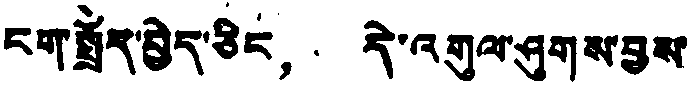ངག་སྤྲོད་བྱེད་ཅིང， དེ་འགུལ་ཤུགས་བྱས་
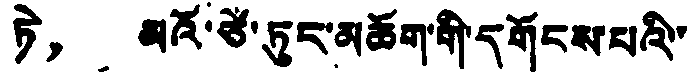ཏེ， མའོ་ཙེ་ཏུང་མཆོག་གི་དགོངས་པའི་་
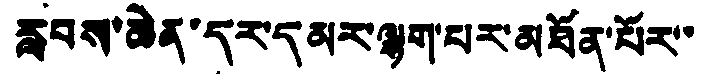རླབས་ཆེན་དར་དམར་ལྷག་པར་མཐོན་པོར་་
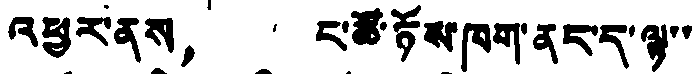འཕྱར་ནས， ང་ཚོ་ཉོས་ཁག་ནང་ད་ལྟ་་
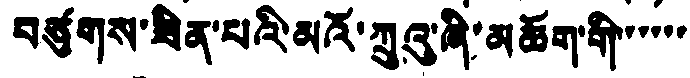བཙུགས་ཟིན་པའི་མའོ་ཀྲུའུ་ཞི་མཆོག་གི་་་་་་་
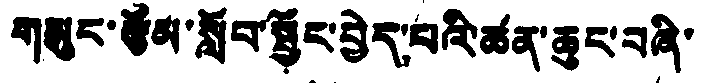གསུང་རྩོམ་སློབ་སྦྱོང་བྱེད་པའི་ཚན་ཆུང་བཞི་
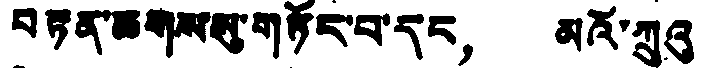བརྟན་ཆགས་སུ་གཏོང་བ་དང， མའོ་ཀྲུའུ
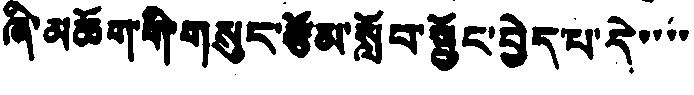ཞི་མཆོག་གི་གསུང་རྩོམ་སློབ་སྦྱོང་བྱེད་པ་དེ་་་་་
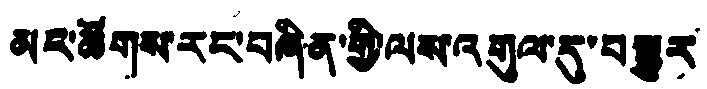མར་ཚོགས་རང་བཞིན་གྱི་ལས་འགུལ་དུ་བསྒྱུར
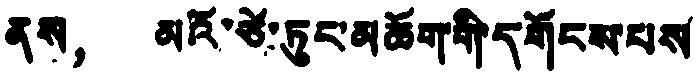ནས， མའོ་ཙེ་ཏུང་མཆོག་གི་དགོངས་པས
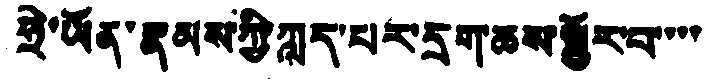ཧྲེ་ཡོན་རྣམས་ཀྱི་ཀླད་པར་དྲག་ཆས་སྦྱོར་བ་་་་
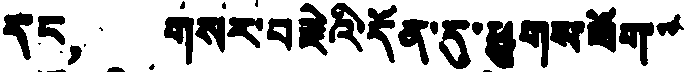དང， གསར་བརྗེའི་དོན་དུ་ཕྱུགས་ཟོག་་
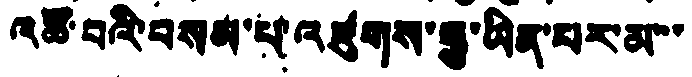འཚོ་བའི་བསམ་པ་འཛུགས་རྒྱུ་ཡིན་པར་མ་་
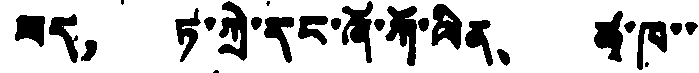ཟད， ཏ་ཀྲེ་དང་ཞོ་ཀོ་ལིན、 ཚྭ་ཁ་་
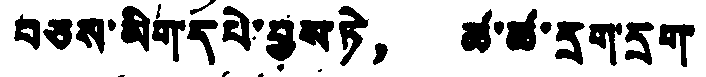བཅས་མིག་དཔེ་བྱས་ཏེ， ཚ་ཚ་དྲག་དྲུག
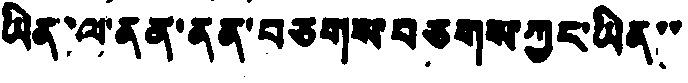ཡིན་ལ་ནན་ནན་བཅགས་བཅགས་ཀྱང་ཡིན་་
